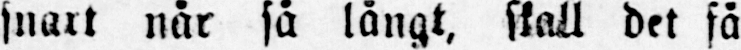snart når så långt, skall det få
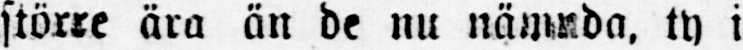större ära än de nu nämnda, ty i
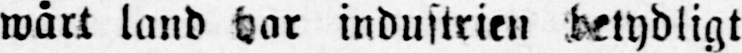wårt land har industrien betydligt
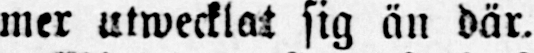mer utwecklat sig än där.
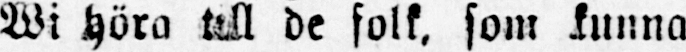Wi höra till de folk, som kunna
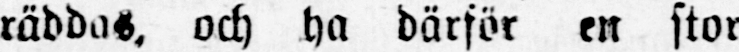räddas, och ha därför en stor
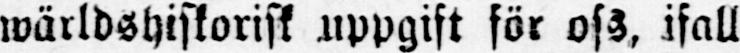wärldshistorisk uppgift för oss, ifall
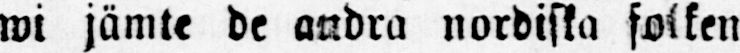wi jämte de andra nordiska folken
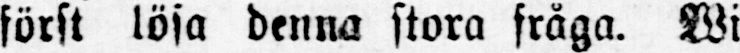först lösa denna stora fråga. Wi
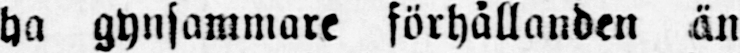ha gynsammare förhållanden än
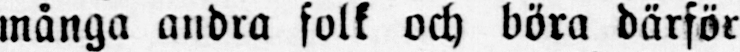många andra folk och böra därför
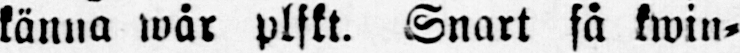känna wår plikt. Snart få kwin-
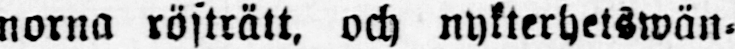norna rösträtt, och nykterhetswän-
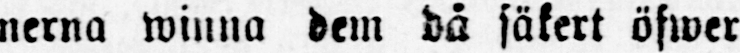nerna winna dem då säkert öfwer
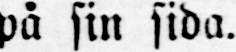på sin sida.
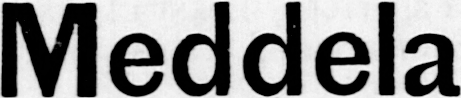Meddela
